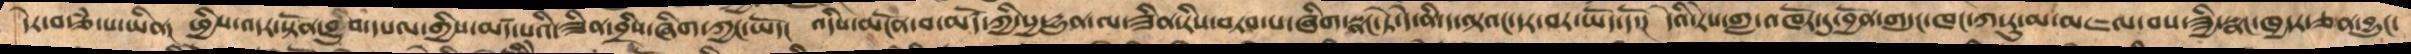དེར་བརྩཾ་པ་ཡིན།  ཕྱིས་འདར་སྟོན་བྱུབ་དཔལ་གྱིས་མཛད་པའི་ཟིན་བྲིས་ཞིག་ཀྱང་ཡོད།  འདིས་མངོན་པ་མཛོད་ཀྱི་སྱ་དྱུན་ལ་ཟིན་རིས་བཏབ་པ་ཞིག་སྣང་ཏེ་དེ་ནི་ད་ལྟའང་དར་བར་ཡོད་དོ།  དེའི་རེས་གླ་འཁོར་དུ་བྱོན་གདུང་ཁང་ཀ་རུ་མ་མཇལ་བས་ཟྱི་སྣང་ཁྱདར་ཅན་བྱུང་
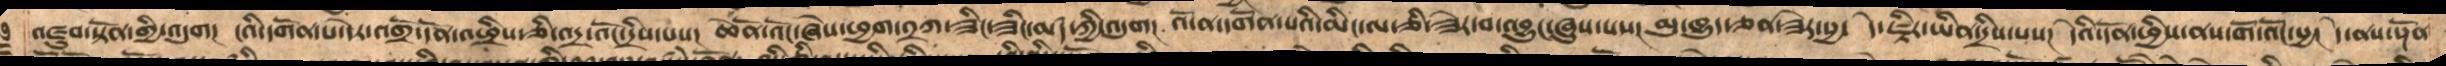མཛུབ་སྟོན་གྱི་འདུག།  ངའི་དགོན་པ་དེར་འགྲོ་དོན་འཕྲིས་ཅི་འདྲ་འོང་དྲིས་པས། ཆེནོ་འོང་ཞེས་ཕྱག་༢ཀ་ཟིང་ཟིང་མཛད་ཀྱི་འདུག།  འོ་ན་དགོན་པའི་མིང་ལ་ཅི་ཟེར་བ་འབྱུང་ཞུས་པས། མུ་ཁྱུད་ཅན་ཟེར་སྱ་ དེ་ཇྟིར་ཡིན་དྲིས་པས། དེའི་དོན་ཕྱིས་ནས་གོ་འོང་སྱ། དེ་ནས་སྔོན་
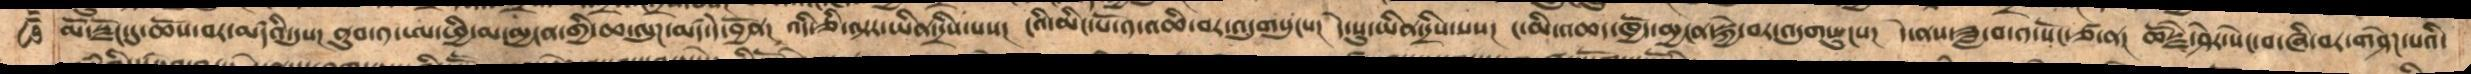མོ་སྫོང་དུ་ཆོས་བར་མཛདའི་དུས། ནུབ་༡་ཨ་ཕྱི་མ་མྱངན་གྱི་ཆ་ལུཌ་མཛད་དེ་བྱོན། འདི་ཅི་ལྟར་ཡིན་དྲིས་པས། ངའི་མིང་པོ་༡་འཆི་བར་འདུགསུངས། དེ་སུ་ཡིན་དྲིས་པསང ང་མི་འཆད་ཁྱོད་མྱངན་སྐྱེ་བར་འདུགསུངས། དེ་ནས་ཟླ་བ་༡་སོང་ཙ་ན། ཆོསྗེ་ཤེར་སེང་བ་ཞི་བར་གཤེཌ་པའི་
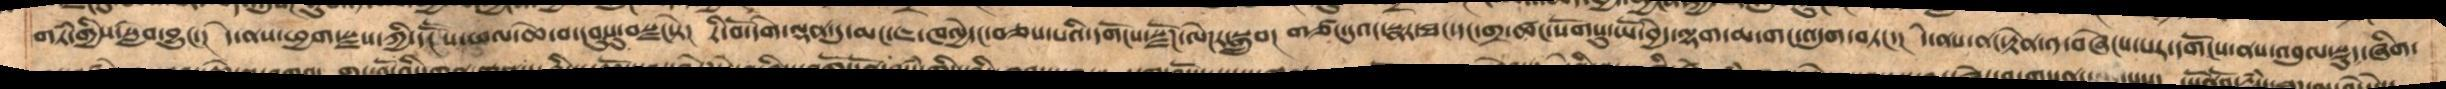གཏཾ་གྱིས་སླེབ་བྱུང་། དེ་ནས་ཕྱག་སྫས་ཀྱི་དངཽས་ཕལ་ཆེ་བ་དབུསུ་བསྫངསྟེ། རི་བོ་དགེ་ལྡན་དུ་མང་ཇ་ཁལྱེ་ང་བཅས་པའི་དགོངས་སྫོཌ་ལེཌར་སྒྲུབ། གཙང་དུའང་སྣར་ཐང་དང་གྲ་ཚང་སོགསུ་ཡོ་བྱེད་ལྷག་མ་གང་འདུག་བཏང་། དེ་ནས་ནང་རྟེན་༡་བཞེངས་པར་དགོངས་ནས་འབུལ་སྡུད་ཞིག་
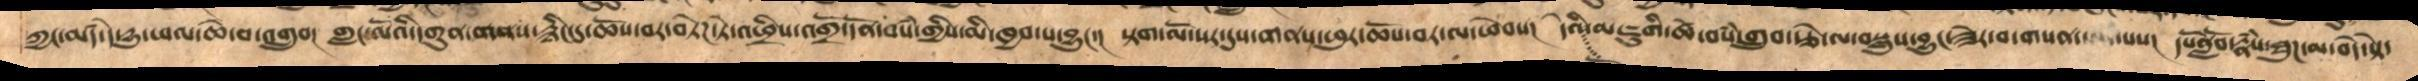ཀྱང་མཛད་དེ་དྱུ་ཕལ་ཆེ་བ་འགྲུབ།  གླང་ལོའི་དགུན་གནས་རྙིང་དུ་ཆོས་བར་བཏེཌ་ཏེ་འགྲོ་དོན་བསཾ་གྱིས་མི་ཁྱབ་པ་བྱུང་།  སྟག་ལོ་སར་དུས་གནས་ཕུར་ཆོས་བར་ལ་ཕེབས།  དེའི་མཇུགི་ཚེ་བསཾ་གྲུབ་རྩེ་ལ་བསླུས་བྱུང་ཟེར་བ་གསན་པས།  དཔོནློབ་རྣཾས་ཐུཌ་མ་བདེ་སྟེ་
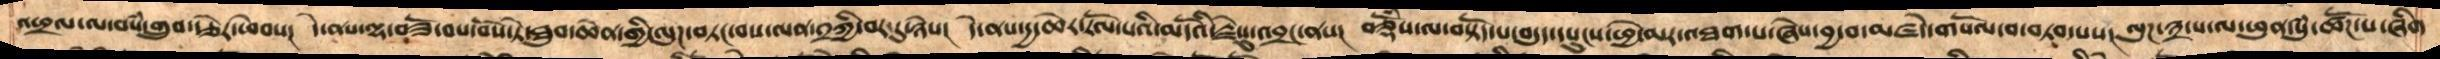འཕྲལ་ལ་བསཾ་འགྲུབ་རྩེར་ཕེབས།  དེ་ནས་ལྷ་བཟོ་བས་བོས་ཏེ་ཐུབ་ཆེན་གྱི་ལུཌ་བཏང་བས་ལན་༢ཀྱི་བར་དུ་ཉེས།  དེ་ནས་དྱ་ཆེར་རོལ་པའི་མདོའི་རྗེསུ་འབྲངས་ནས།  བཅྡོཾས་ལ་བསྟོད་པ་བདུད་དཔུང་ཕྱེ་མར་འཐག་པ་ཞེས་བྱ་བ་མཛདེ་གསོལ་བ་བཏབ་པས།  ལུཌ་༣་པ་ཕུན་སུཾ་ཚོཌ་པ་ཞིག་
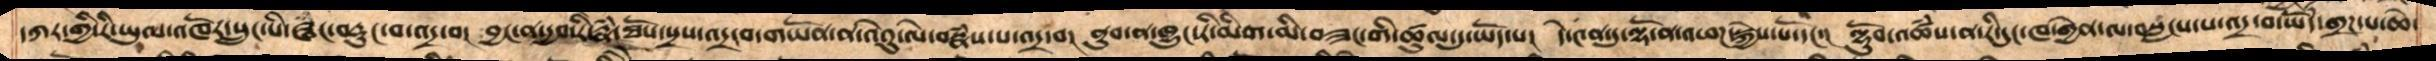དཀར་གྱི་རི་ཡུལ་འཁོར་སྲུང་པི་ཝ་བརྡུང་བ་འདྲ་བ།  བྱང་ན་དྱབ་རི་རྣཾ་ཐོས་སྲས་འདྲ་བ་གཡོན་ན་ནེའུ་ལེ་བསྣཾས་པ་འདྲ་བ།  ནུབ་ན་ཁྱུང་རི་མིག་མི་བཟང་གི་ཚུལ་དུ་ཡོད་པ།  དེ་༤ན་དུ་ལྷོ་ན་འཕཌ་སྐྱེས་པོ་དང་།  ལྷོུབ་འཚཾས་ན་རི་དུང་ཁ་གྱེན་ལ་བསླངས་པ་འདྲ་བ་ཡོདཾ་གྲཌ་པ་ཆེ་
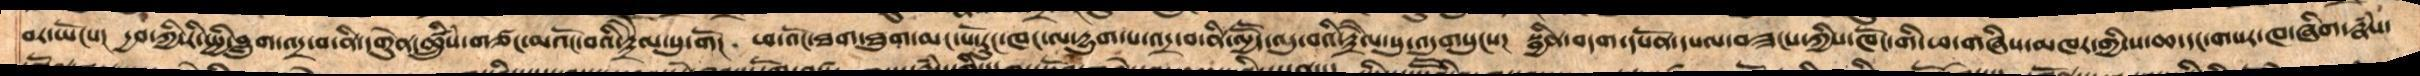བར་ཡོངས།  དྱབ་ཀྱི་རི་སྤྱི་བླུག་འདྲ་བ་ནི་དགེུན་ཚྲིུཾས་གཙང་མའོང་བའི་རྟྲཻལ་སུ་གོ།།  ཕ་བོང་ཐག་ཐུག་མང་པོ་རུང་ཁང་ལ་དྱུག་པ་འདྲ་བ་ནི་ལྱཽད་འདུ་བའི་རྟྲཻལ་དུ་འདུགསུངས།  སྦྱིན་བདག་དཔོན་དཔལ་བཟངས་ཀྱིས་ཁོང་གི་ཕ་གཞིས་མཁར་གྱི་ས་ཆ་དང་གསར་ཁ་ཞིག་རྣཾས་
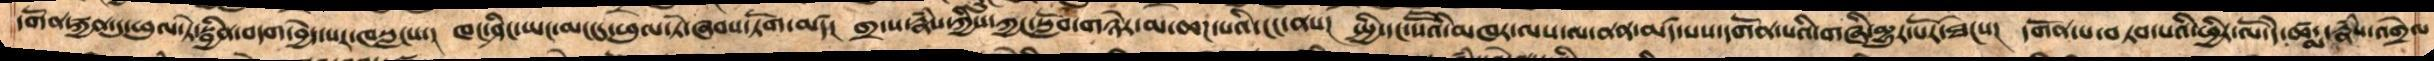དགོན་རྐྱན་དུ་ཕུལ་ཏེ་སྦྱིན་བདག་བྱེད་པར་ཁསླངས།  ཁང་ཤིང་ཡང་མང་དུ་ཕུལ་ཏེ་ཞབས་ཏོག་མཛད།  གྲ་པ་རྣཾས་ཀྱིས་ཀྱང་སློབ་གཉེར་མ་ཆཌ་པའི་ངང་ནས།  སྤྱི་དང་སཽའི་མཁར་ལས་ལ་ནན་མཛད་པས་དགོན་པའི་གཞི་མྱུར་པོར་ཐེངས།  དགོན་པ་བཏབ་པའི་ཕྱིར་ལོ་དེ་ཚདྨ་རྣཾས་འགྲེལ
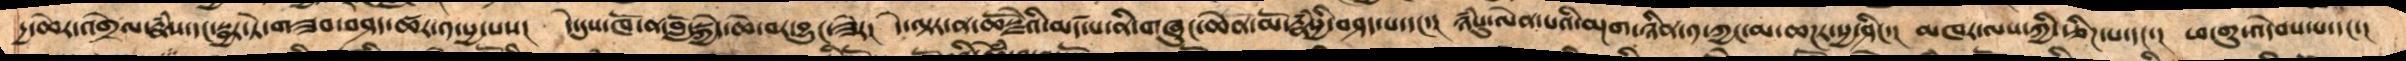དྱ་ཆེར་་འགྲེལ་རྣཾས་དང་སྦྱར་ཏེ་གཟབ་བཤད་ཚར་༡་སྱ་པས།  དེ་དུས་ཁོ་ན་བློ་སྐྱེད་ཆེ་བར་བྱུང་ཟེར།  དེ་ལྟར་ན་ཆོསྗེའི་མཛད་པ་ནི་གཞུང་ཆེན་མོ་རྣཾསྱི་བཤད་པ་དང་།  ཉཾསུ་ལེན་པའི་མྔག་ཉིན་༡་ཀྱང་མ་ཆཌར་སྱ་ཤིང་།  མཁར་ལས་ཀྱི་རྩིཌ་པ་དང་།  ཕ་གུ་འདེབས་པ་དང་།
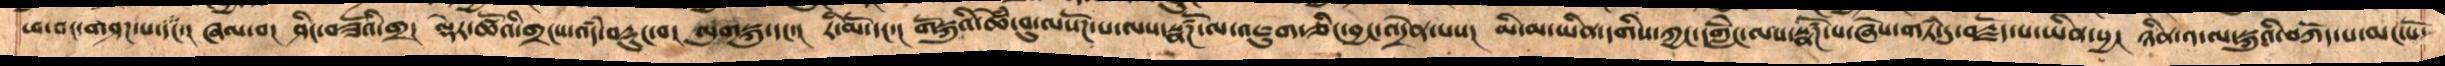ཕ་བང་གཤཌ་པ་དང་།  ཞལ་བ།  ཤིང་བཟོའི་གྲ།  ལྡེར་ཚོའི་གྲངས་འདཾ་བརྡུང་བ།  ལུགསྐུ་དང་།  རི་མོ་དང་།  གོསྐུའི་ཚེཾ་བུ་ལསོཌ་པ་ལས་སྣཚོཌ་ལ་འཇུག་ཅིང་བྱང་འདྲེན་པས།  མི་མ་ཡིན་དགིས་ཀྱང་དགླེོང་ལས་སྣཚོཌ་པ་ཞེས་གཏཾ་དུ་བརྗོད་པ་ཡིན་སྱ།  ཉིན་༡་ལ་སྐུའི་བཀོད་པ་མང་པོ་
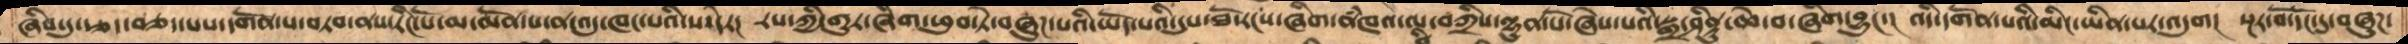ཞིབ་ཏུ་རྩད་བཅད་པས་དགོན་པ་བཏབ་ནས་རིང་པོ་མ་ལོན་པ་ན་འདུ་ཁང་པའི་ས་དེར།  རས་ཀྱི་གུར་ཞིག་ཕུབ་ཏེ་བཞུཌ་པའི་ཡོད་པའི་དུས་ཐོ་རངས་ཞིག་ནཾཁའ་ལ་བཀྲིས་ལྷུན་པོ་ཞེས་པའི་སྒྲ་ཤིནྟུ་ཆེ་བ་ཞིག་བྱུང་།  འདི་དགོན་པའི་མིང་ཡིན་པར་འདུག།  སྔར་བོ་དོང་དུ་བཞུཌ་
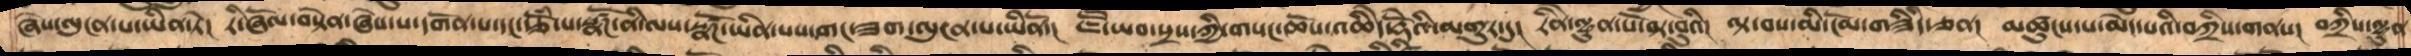ཞེས་ལུངན་པ་ཡིན་ཏེ།  རི་ཞོལ་བསྟེན་ཞེས་པ་དགོན་པ་དང་རྩོཾ་པ་སྣཚོཌ་ནི་ལས་སྣཚོཌ་ཡིན་པས་གང་ཟག་ལུངན་པ་ཡིནོ།  ཇཽ་ཡབ་སྲས་ཀྱི་གསང་ཆོས་འཆིདེ་རྡོེའི་མགུར་དུ།  རིནེ་ལྷུན་པོ་ཤར་བུའི།  ལྟ་བས་མི་ངོམ་གཟིེད་ཅན།  མཚུངས་པ་མེད་པའི་བཀྲིས་གནས།  བཀྲིས་ལྷུན
